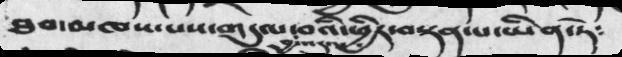ཐབ་མཁས་པས་གདུལ་བྱ་འདུལ་བའི་ཕྱིར་བསྟན་པ་ཡིན་ཏེ༴
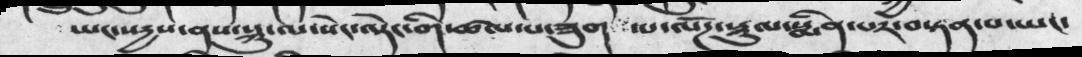ཡང་སདྱས་ནས་སྐུ་ལ་སེང་ལྡེང་གི་ཚལ་པ་ཟུག  ་པ་ལོཌ་རྡུལ་སྨིན་པར་བསྟན་པ་ཡང་
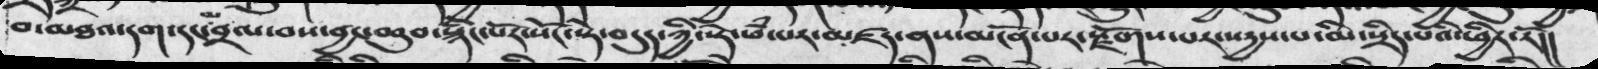བ་མཐའ་དག་དང་མ་བྲལ་བས་བྱང་ཆུབ་སྙིང་པོར་སོང་སྟེ་བདུད་ཀྱི་སྡེ་ཕཾ་པར་མཛད་ནས་མངོན་པར་རྫོགས་པར་སདྱས་པ་མི་སྲིད་པའི་ཕྱིར་རོ།།
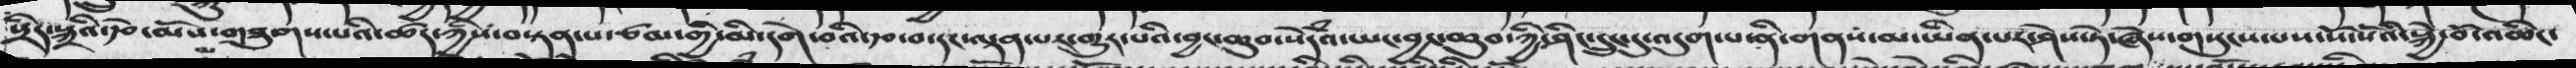སྲིད་སྐྲའི་རྩེ་མསོ་གཟུགས་པའི་ཚད་ཀྱིས་བསྟན་པ་ཙམ་གྱི་མི་དགེ་བའི་རྩ་བ་དང་ལྡན་པར་གྱུར་པའི་བྱང་ཆུབ་སེཾདའ་ཡང་བྱང་ཆུབ་ཤིང་དྲུང་དུ་འདུག་པ་ནི་གནས་མ་ཡིན་པར་ཤེས་ཏེ་ཞེས་གསུངས་པས་སོ་སོའི་སྐྱེ་བོ་འཆིང་
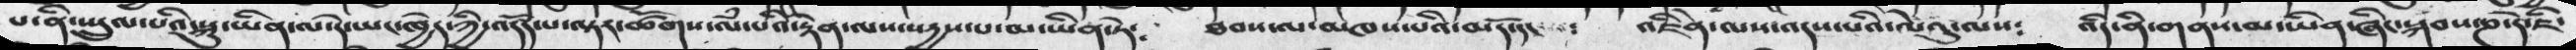པ་ནི་སྤྲུལ་པའི་སྐུ་ཡིན་ལ་དེ་ཡང་ཁྱེད་ཀྱི་འདོད་པ་ལྟར་ཚོགས་ལཾ་པའི་རྟེན་ལས་སདྱས་པ་མ་ཡིན་ཏེ༴   ཐབས་ལ་མཁས་པའི་མདོ་དང༴  འཇིགེ་ལས་འདས་པའི་ལེའུ་ལས༴  འདི་ནི་གནས་མ་ཡིན་ཞིང་སྐབས་ཎ་དེ་ཇི་
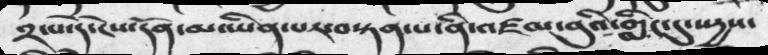༢་པ་དེ་ངེས་དོན་མ་ཡིན་པར་བསྟན་པ་ནི་འཛམ་བུའི་གླིང་དུ་སདྱས་
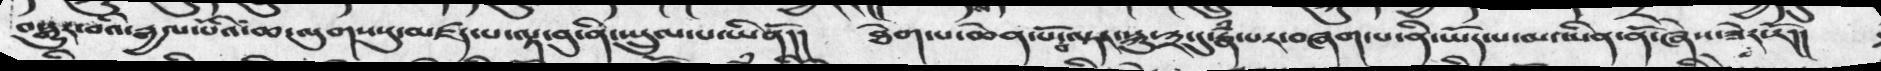བསྒྱུར་བའི་རྒྱལ་པོའི་ཆ་ལུགས་སུ་མཛད་པ་ལྟ་བུ་ནི་སྤྲུལ་པ་ཡིནོ།།  ཐེག་པ་ཆེན་པོ་བལྟར་སྐུ་༣་དུ་རྣཾ་པར་བཞག་པ་ནི་ཡོད་པ་མ་ཡིན་ནོ་ཞེས་ཟེར་རོ།།
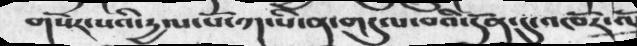གསེར་སའི་དྱལ་པོ་ཀ་པི་ན་གདུལ་བའི་དོན་དུ་འཁོར་ལོ
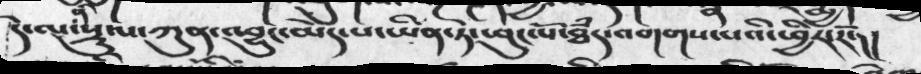དེ་ལ་ནི་སྡུལ་ཀུན་འབྱུང་མེད་པ་ཡིན་ཏེ་ཕུང་པོ་ཐཾད་འགགས་པའི་ཕྱིར་རོ་།།
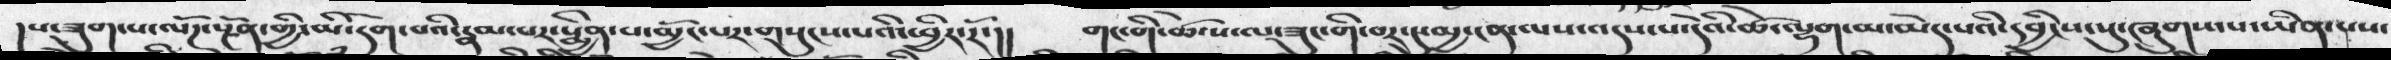།ས་ཟུག་ས་ལོཌ་སྔོན་གྱི་མི་དགེ་པའི་རྣམ་པར་སྨྱིན་པ་མྱོང་པར་གསུངས་པའི་ཕྱིར་རོ་།།  གང་གི་ཚེ་ས་ལ་ཟུང་གི་བར་དུ་མྱ་ངན་ལས་འདས་པ་དེའི་ཚེ་ལྷག་མ་མེད་པའི་དབྱིངས་སུ་ཞུགས་པ་ཡིན་པས་
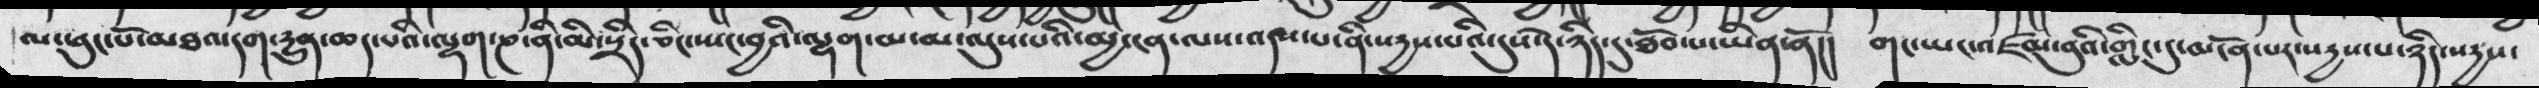ལ་ཕུང་པོ་མཐའ་དག་དྱུན་ཆད་པའི་ལྷག་ཎ་ནི་མི་སྲིད་ཅིང་སྤང་བྱའི་ལྷག་མ་མ་ལུས་པའི་མྱ་ངན་ལས་འདས་པ་ནི་སདྱས་པའི་དུས་དེ་ཉིད་དུ་ཐོབ་པ་ཡིན་ནོ།།  གང་ཡང་འཛམ་བུའི་གླིང་དུ་མངོན་པར་སདྱས་པ་ཉིད་སདྱས་
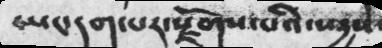ཡང་དག་པར་སྫོགས་པའི་སདྱས་
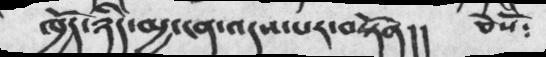ཁྱོད་ཉིད་མྱ་ངན་འདས་པར་བསྟོན།།     ཅེསོ༴
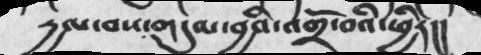དྱལ་བས་གདུལ་བྱའི་འགྲོ་བའི་ཕྱིར།།
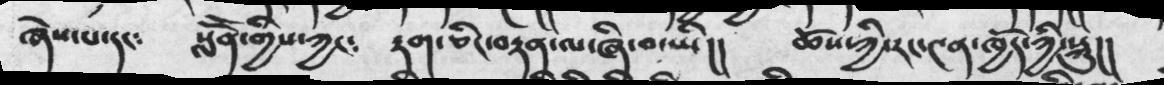ཞེས་པ་དང༴    སློོན་གྱིས་ཀྱང༴   རྟག་ཅིང་བརྟན་ལ་ཞི་བ་ཡི།།       ཆོས་ཀྱི་རང་༤ན་ཁྱོད་ཀྱི་སྐུ།།
